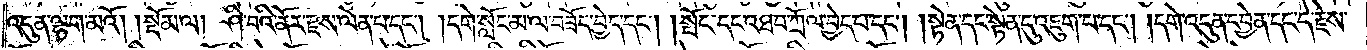འདུན་ལྷག་མའོ། །སྡོམ་ལ། ཤི་བའི་ནོར་རྫས་ལེན་པ་དང༌། །དགེ་སློང་མ་ལ་བཟོད་བྱེད་དང༌། །སྤོང་དང་འཐབ་ཀྲོལ་བྱེད་པ་དང༌། །སྟེན་དང་སྟེན་དུ་འཇུག་པ་དང༌། །དགེ་འདུན་དབྱེན་དང་དེ་རྗེས་
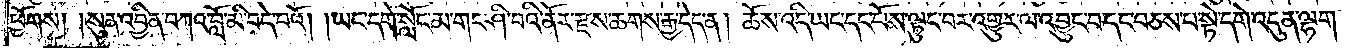ཕྱོགས། །སུན་འབྱིན་བཀའ་བློ་མི་བདེ་བའོ། །ཡང་དགེ་སློང་མ་གང་ཤི་བའི་ནོར་རྫས་ཆགས་རྒྱ་དེད་ན། ཆོས་འདི་ཡང་དང་པོས་ལྟུང་བར་འགྱུར་ལ་འབྱུང་བ་དང་བཅས་པ་སྟེ་དགེ་འདུན་ལྷག་
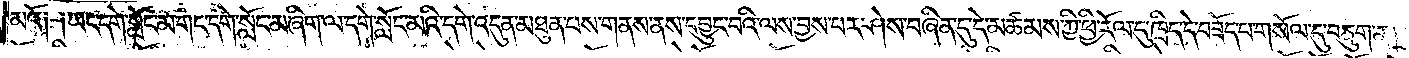མའོ༑ ༑ཡང་དགེ་སློང་མ་གང་དགེ་སློང་མ་ཞིག་ལ་དགེ་སློང་མའི་དགེ་འདུན་མཐུན་པས་གནས་ནས་དབྱུང་བའི་ལས་བྱས་པར་ཤེས་བཞིན་དུ་དེ་མཚམས་ཀྱི་ཕྱི་རོལ་དུ་ཁྲིད་དེ་བཟོད་པ་གསོལ་དུ་བཅུག་ན།
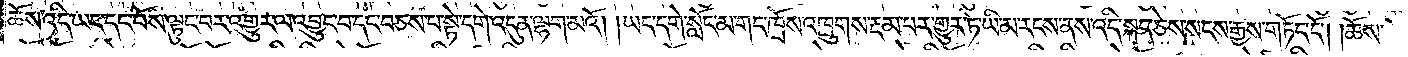ཆོས་འདི་ཡང་དང་པོས་ལྟུང་བར་འགྱུར་ལ་འབྱུང་བ་དང་བཅས་པ་སྟེ་དགེ་འདུན་ལྷག་མའོ། །ཡང་དགེ་སློང་མ་གང་ཁྲོས་འཁྲུགས་རྔམ་པར་གྱུར་ཏེ་ཡི་མ་རངས་ནས་འདི་སྐད་ཅེས་སངས་རྒྱས་གཏོང་ངོ༌། །ཆོས་
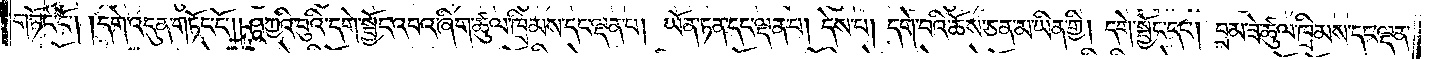གཏོང་ངོ༌། །དགེ་འདུན་གཏོང་ངོ༌། །ཤཱཀྱའི་བུའི་དགེ་སྦྱོང་འབའ་ཞིག་ཚུལ་ཁྲིམས་དང་ལྡན་པ། ཡོན་ཏན་དང་ལྡན་པ། དེས་པ། དགེ་བའི་ཆོས་ཅན་མ་ཡིན་གྱི། དགེ་སྦྱོང་དང༌། བྲམ་ཟེ་ཚུལ་ཁྲིམས་དང་ལྡན་
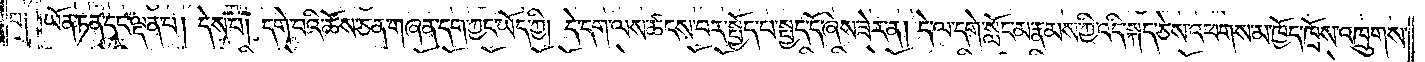པ༑ ཡོན་ཏན་དང་ལྡན་པ། དེས་པ། དགེ་བའི་ཆོས་ཅན་གཞན་དག་ཀྱང་ཡོད་ཀྱི། དེ་དག་ལས་ཚངས་བར་སྤྱོད་པ་སྤྱད་དོ་ཞེས་ཟེར་ན། དེ་ལ་དགེ་སློང་མ་རྣམས་ཀྱི་འདི་སྐད་ཅེས་འཕགས་མ་ཁྱོད་ཁྲོས་འཁྲུགས་
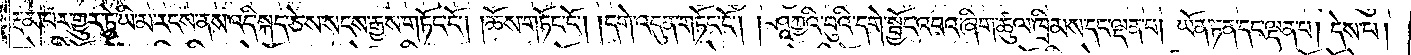རྔམ་པར་གྱུར་ཏེ་ཡི་མ་རངས་ནས་འདི་སྐད་ཅེས་སངས་རྒྱས་གཏོང་ངོ༌། །ཆོས་གཏོང་ངོ༌། །དགེ་འདུན་གཏོང་ངོ༌། །ཤཱཀྱའི་བུའི་དགེ་སྦྱོང་འབའ་ཞིག་ཚུལ་ཁྲིམས་དང་ལྡན་པ། ཡོན་ཏན་དང་ལྡན་པ། དེས་པ།
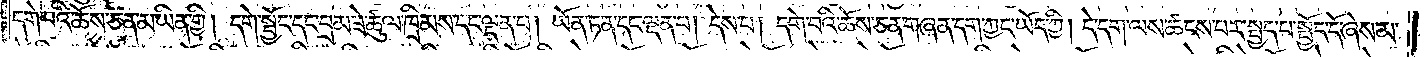དགེ་བའི་ཆོས་ཅན་མ་ཡིན་གྱི། དགེ་སྦྱོང་དང་བྲམ་ཟེ་ཚུལ་ཁྲིམས་དང་ལྡན་པ། ཡོན་ཏན་དང་ལྡན་པ། དེས་པ། དགེ་བའི་ཆོས་ཅན་གཞན་དག་ཀྱང་ཡོད་ཀྱི། དེ་དག་ལས་ཚངས་པར་སྤྱད་པ་སྤྱོད་དོ་ཞེས་མ་
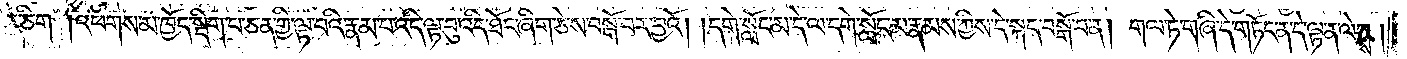ཟེར་ཅིག །འཕགས་མ་ཁྱོད་སྡིག་པ་ཅན་གྱི་ལྟ་བའི་རྣམ་པ་འདི་ལྟ་བུ་འདི་ཐོང་ཞིག་ཅེས་བསྒོ་བར་བྱའོ། །དགེ་སློང་མ་དེ་ལ་དགེ་སློང་མ་རྣམས་ཀྱིས་དེ་སྐད་བསྒོ་བ་ན། གལ་ཏེ་གཞི་དེ་གཏོང་ན་དེ་ལྟ་ན་ལེགས།
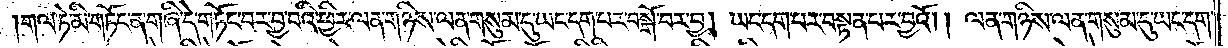གལ་ཏེ་མི་གཏོང་ན་གཞི་དེ་གཏོང་བར་བྱ་བའི་ཕྱིར་ལན་གཉིས་ལན་གསུམ་དུ་ཡང་དག་པར་བསྒོ་བར་བྱ། ཡང་དག་པར་བསྟན་པར་བྱའོ། །ལན་གཉིས་ལན་གསུམ་དུ་ཡང་དག་
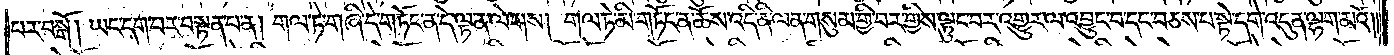པར་བསྒོ། ཡང་དག་པར་བསྟན་པ་ན། གལ་ཏེ་གཞི་དེ་གཏོང་ན་དེ་ལྟ་ན་ལེགས། གལ་ཏེ་མི་གཏོང་ན་ཆོས་འདི་ནི་ལན་གསུམ་གྱི་བར་གྱིས་ལྟུང་བར་འགྱུར་ལ་འབྱུང་བ་དང་བཅས་པ་སྟེ་དགེ་འདུན་ལྷག་མའོ༎
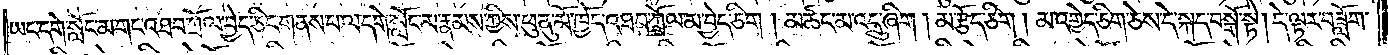ཡང་དགེ་སློང་མ་གང་འཐབ་ཀྲོལ་བྱེད་ཅིང་གནས་པ་ལ་དགེ་སློང་མ་རྣམས་ཀྱིས་ཕུ་ནུ་མོ་ཁྱོད་འཐབ་ཀྲོལ་མ་བྱེད་ཅིག། མཚང་མ་འདྲུ་ཞིག། མ་རྩོད་ཅིག །མ་འགྱེད་ཅིག་ཅེས་དེ་སྐད་བསྒོ་སྟེ། དེ་ལྟར་བཟློག་
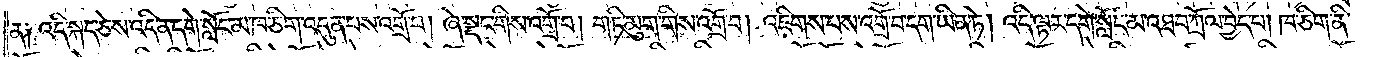ན༑ འདི་སྐད་ཅེས་འདི་ན་དགེ་སློང་མ་ཁ་ཅིག་འདུན་པས་འགྲོ་བ། ཞེ་སྡང་གིས་འགྲོ་བ། གཏི་མུག་གིས་འགྲོ་བ། འཇིགས་པས་འགྲོ་བ་དག་ཡིན་ཏེ། འདི་ལྟར་དགེ་སློང་མ་འཐབ་ཀྲོལ་བྱེད་པ། ཁ་ཅིག་ནི་
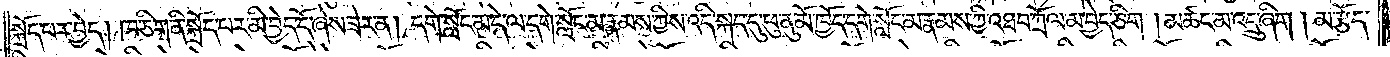སྐྲོད་པར་བྱེད། ཁ་ཅིག་ནི་སྐྲོད་པར་མི་བྱེད་དོ་ཞེས་ཟེར་ན། དགེ་སློང་མ་དེ་ལ་དགེ་སློང་མ་རྣམས་ཀྱིས་འདི་སྐད་དུ་ཕུ་ནུ་མོ་ཁྱོད་དགེ་སློང་མ་རྣམས་ཀྱི་འཐབ་ཀྲོལ་མ་བྱེད་ཅིག། མཚང་མ་འདྲུ་ཞིག། མ་རྩོད་
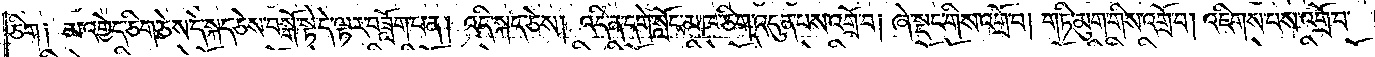ཅིག༑ མ་འགྱེད་ཅིག་ཅེས་དེ་སྐད་ཅེས་བསྒོ་སྟེ་དེ་ལྟར་བཟློག་པ་ན། འདི་སྐད་ཅེས། འདི་ན་དགེ་སློང་མ་ཁ་ཅིག་འདུན་པས་འགྲོ་བ། ཞེ་སྡང་གིས་འགྲོ་བ། གཏི་མུག་གིས་འགྲོ་བ། འཇིགས་པས་འགྲོ་བ་
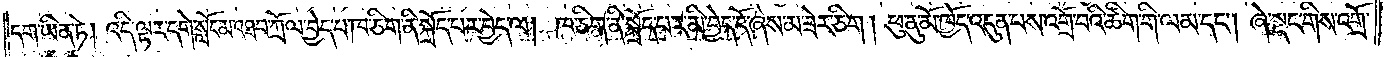དག་ཡིན་ཏེ། འདི་ལྟར་དགེ་སློང་མ་འཐབ་ཀྲོལ་བྱེད་པ་ཁ་ཅིག་ནི་སྐྲོད་པར་བྱེད་ལ། ཁ་ཅིག་ནི་སྐྲོད་པར་མི་བྱེད་དོ་ཞེས་མ་ཟེར་ཅིག། ཕུ་ནུ་མོ་ཁྱོད་འདུན་པས་འགྲོ་བའི་ཚིག་གི་ལམ་དང༌། ཞེ་སྡང་གིས་འགྲོ་
